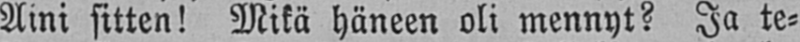Aini sitten! Mikä häneen oli mennyt? Ja te-
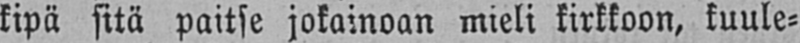kipä sitä paitse jokainoan mieli kirkkoon, kuule-
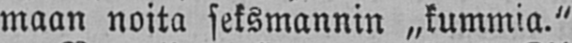maan noita seksmannin „kummia."
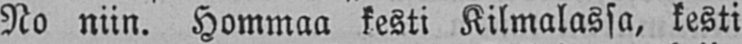No niin. Hommaa kesti Kilmalassa, kesti
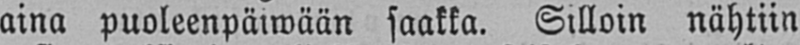aina puoleenpäiwään saakka. Silloin nähtiin
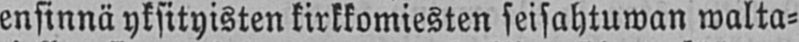ensinnä yksityisten kirkkomiesten seisahtuwan walta-
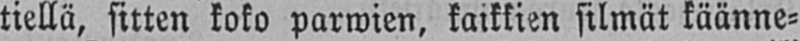tiellä, sitten koko parwien, kaikkien silmät käänne-
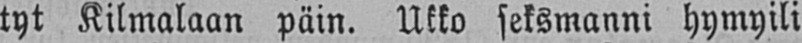tyt Kilmalaan päin. Ukko seksmanni hymyili
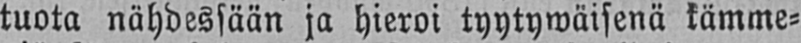tuota nähdessään ja hieroi tyytywäisenä kämme-
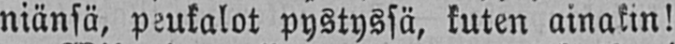niänsä, peukalot pystyssä, kuten ainakin!
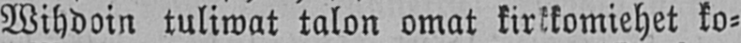Wihdoin tuliwat talon omat kirkkomiehet ko-
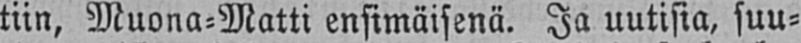tiin, Muona-Matti ensimäisenä. Ja uutisia, suu-
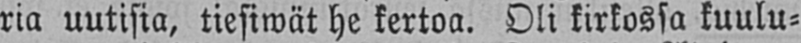ria uutisia, tiesiwät he kertoa. Oli kirkossa kuulu-
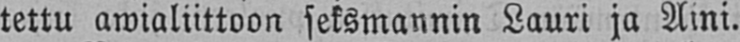tettu awialiittoon seksmannin Lauri ja Aini.
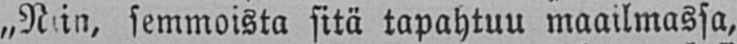„Niin, semmoista sitä tapahtuu maailmassa,
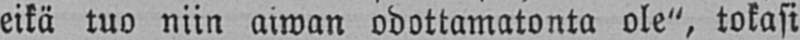eikä tuo niin aiwan odottamatonta ole", tokasi
